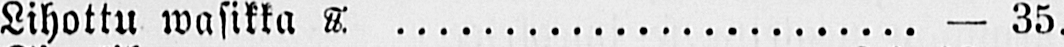Lihottu wasikka U+2114 — 35.
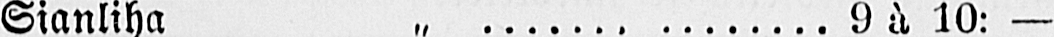Sianliha „ 9 ä 10: —
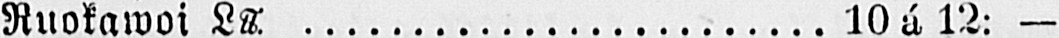Ruokawoi LU+2114 10 ä 12: -
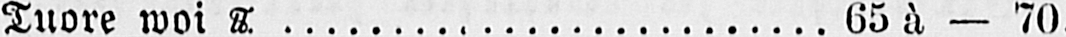Tuore woi U+2114 65 ä — 70.
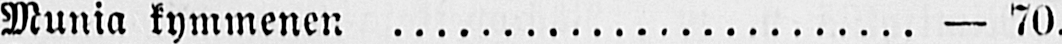Munia kymmenen — 70.
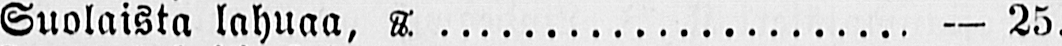Suolaista lahuaa, U+2114 — 25.
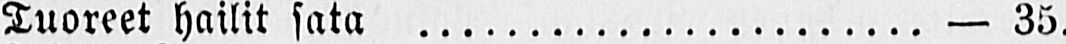Tuoreet hailit sata — 35.
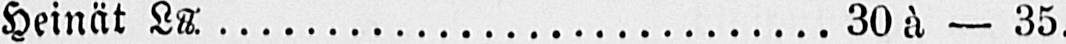Heinät LU+2114 30 ä — 35.
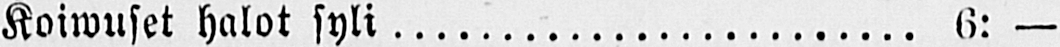Koiwuset halot syli 6: —
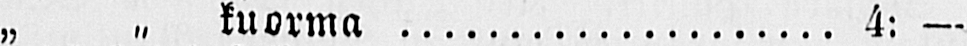„ „ kuorma 4: —
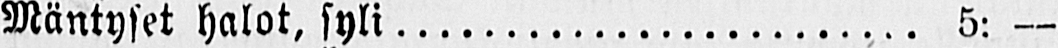Mäntyset halot, syli 5: —
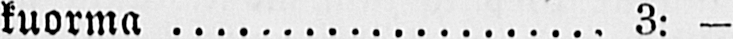„ „ kuorma 3: —
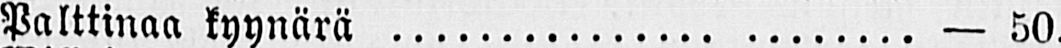Palttinaa kyynärä — 50.
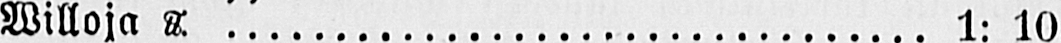Willoja U+2114 1: 10,
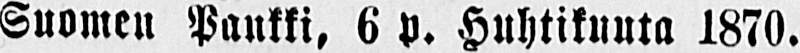Suomen Pankki, 6 p. Huhtikuuta 1870.
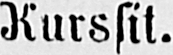Kurssit.
